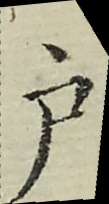戶
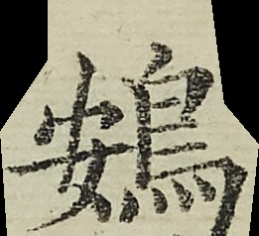鴳
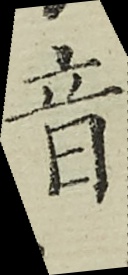音
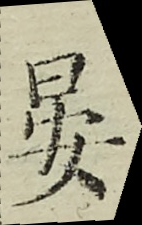晏
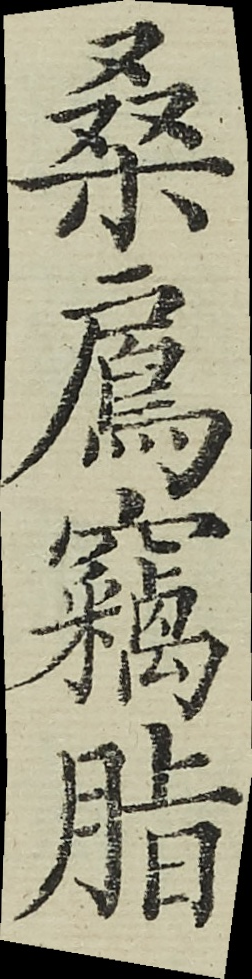桑鳸竊脂
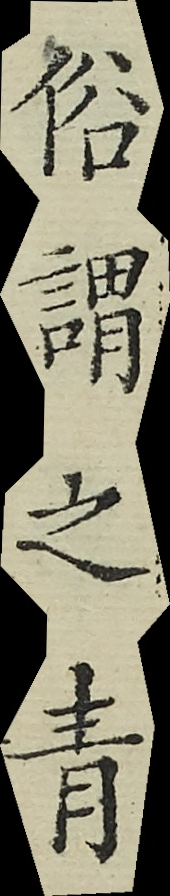俗謂之青
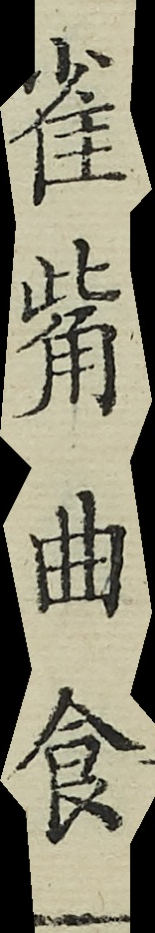雀觜曲食
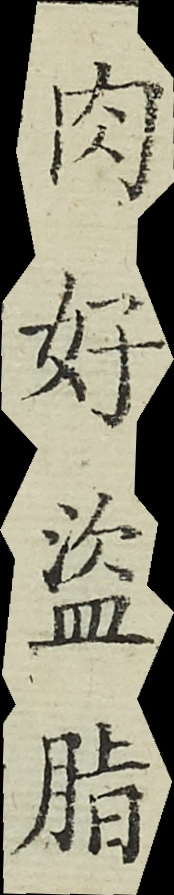肉好盜脂
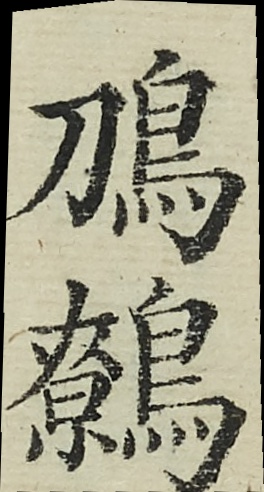鳭鷯
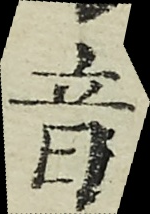音
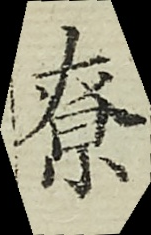尞
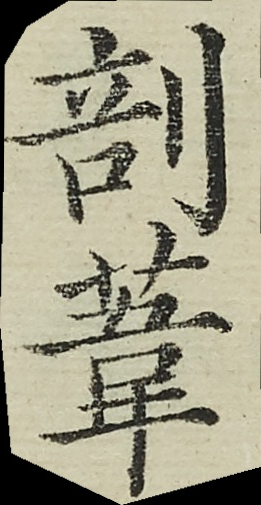剖葦
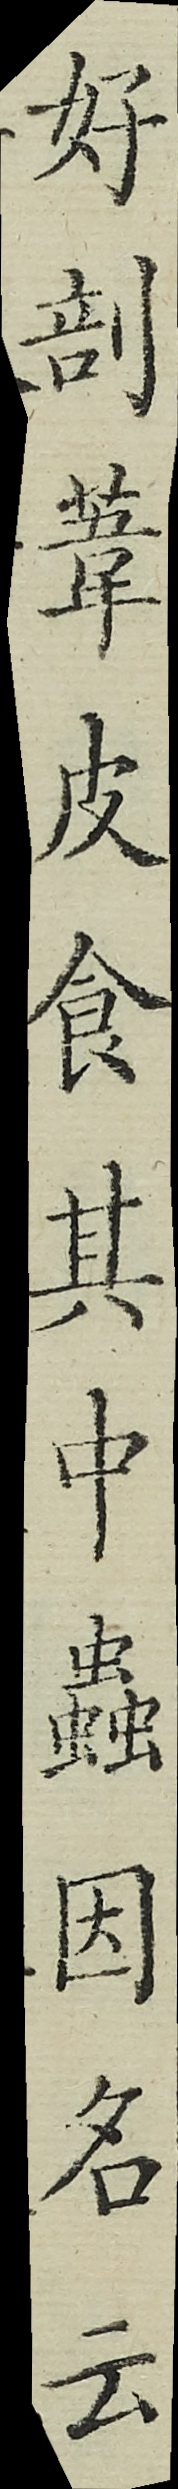好剖葦皮食其中蟲因名云
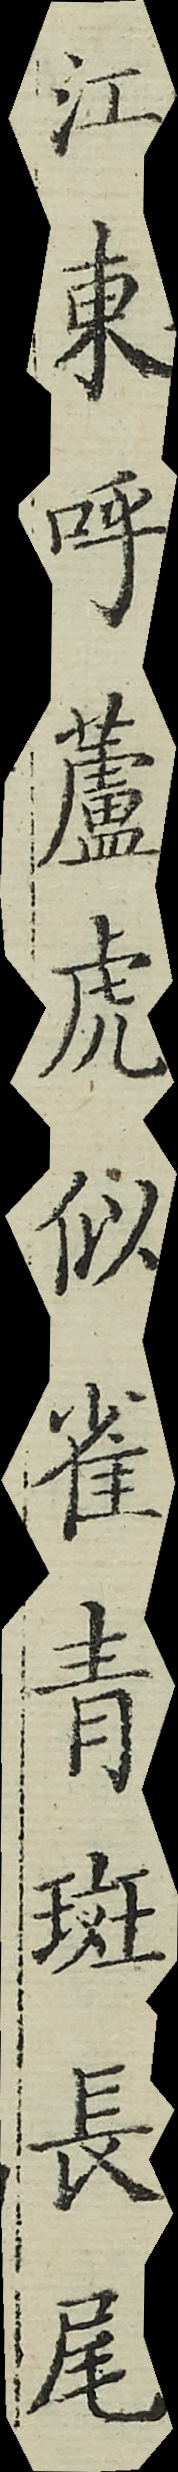江東呼蘆虎似雀青斑長尾
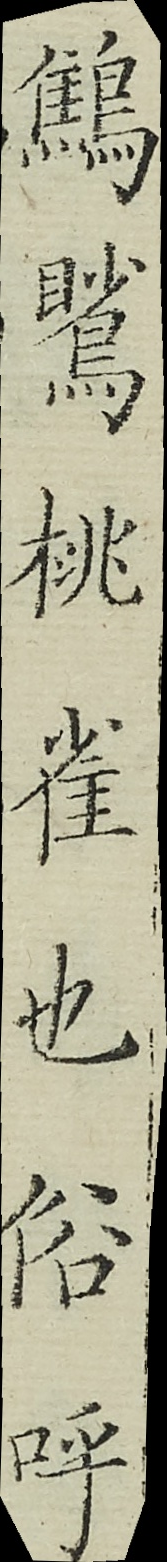鷦𪃧桃雀也俗呼
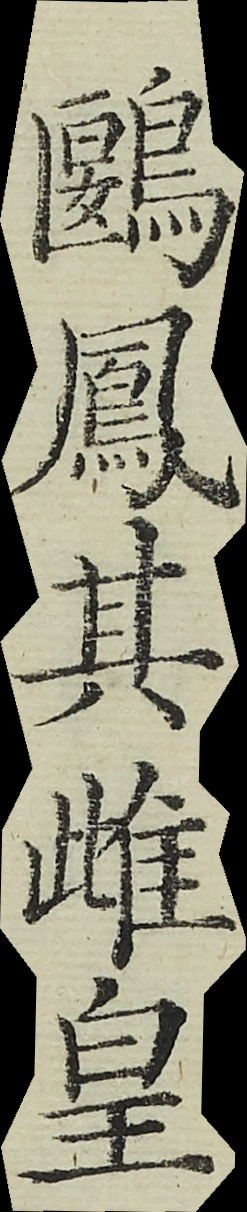鶠鳳其雌皇
